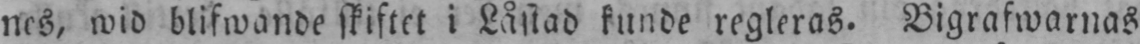nes, wid blifwande skiftet i Låstad kunde regleras. Bigrafwarnas
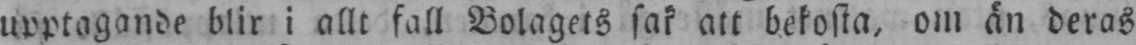upptagande blir i allt fall Bolagets sak att bekosta, om än deras
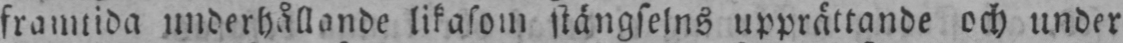framtida underhållande likasom stängselns upprättande och under
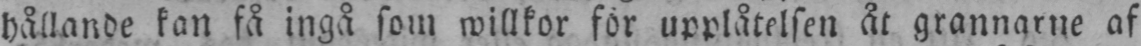hållande kan få ingå som willkor för upplåtelsen åt grannarne af
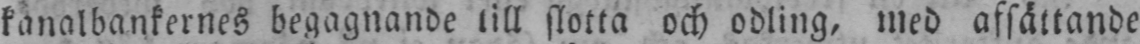kanalbankernes begagnande till slotta och odling, med afsättande
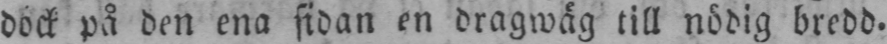dock på den ena sidan en dragwäg till nödig bredd.
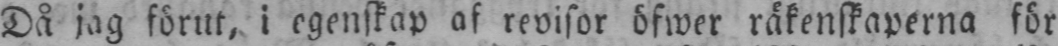Då jag förut, i egenskap af revisor öfwer räkenskaperna för
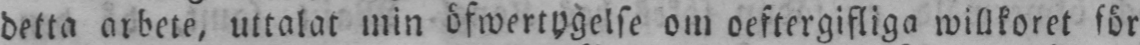detta arbete, uttalat min öfwertygelse om oeftergifliga willkoret för
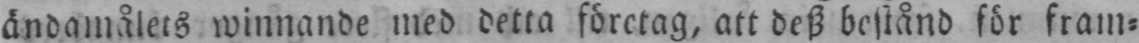ändamålets winnande med detta företag, att desz bestånd för fram-
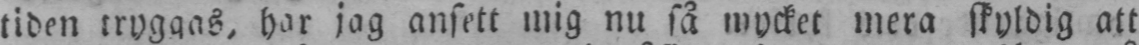tiden tryggas, har jag ansett mig nu så mycket mera skyldig att
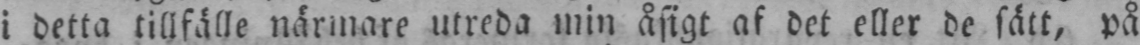i detta tillfälle närmare utreda min åsigt af det eller de sätt, på
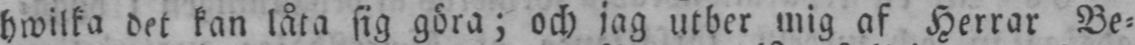hwilka det kan låta sig göra; och jag utber mig af Herrar Be-
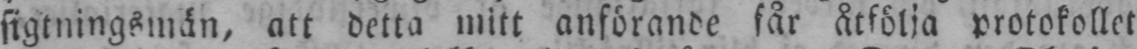sigtningsmän, att detta mitt anförande får åtfölja protokollet
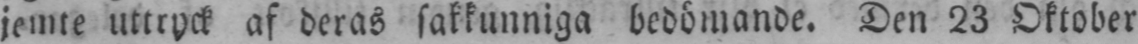jemte uttryck af deras sakkunniga bedömande. Den 23 Oktober
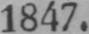1847.
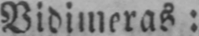Vidimeras:
